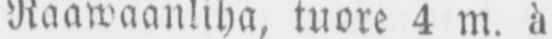Raawaanliha, tuore 4 m. ä
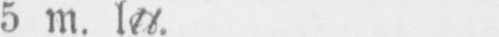5 m. l+U+2114,
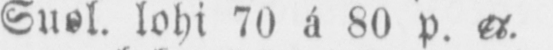Suol. lohi 70 ä 80 p. U+2114,
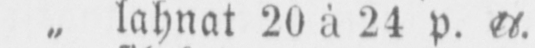„ lahnat 20 ä 24 p. U+2114,
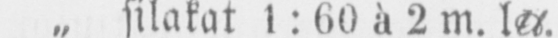„ silakat 1:60 ä 2 m. l+U+2114,
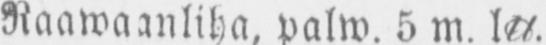Raawaanliha, palw. 5 m. l+U+2114,
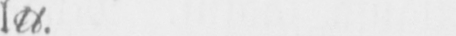Lampaanliha, tuore 5 ä 6
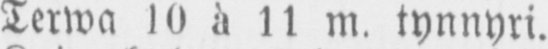Terwa 10 ä 11 m. tynnyri.
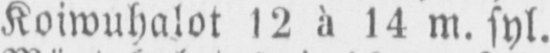Koiwuhalot 12 ä 14 m. syl.
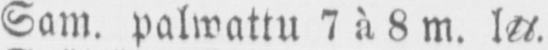Sam. palwattu 7 ä 8 m. l+U+2114,
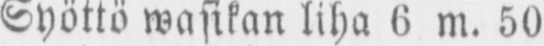Syöttö wasikan liha 6 m. 50
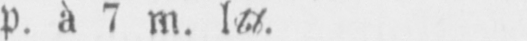p. ä 7 m. l+U+2114,
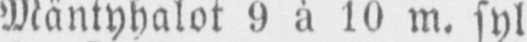Mäntyhalot 9 ä 10 m. syl
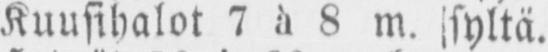Kuusihalot 7 ä 8 m. lsyltä.
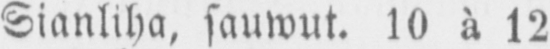Sianliha, sauwut. 10 ä 12
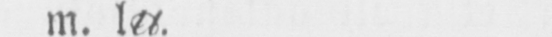m. l+U+2114,
